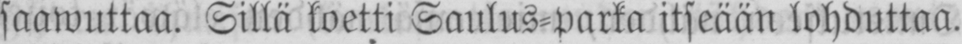saawuttaa. Sillä koetti Saulus-parka itseään lohduttaa.
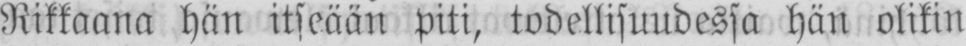Rikkaana hän itseään piti, todellisuudessa hän olikin
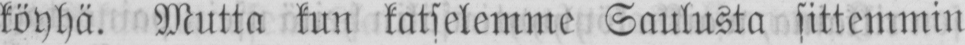köyhä. Mutta kun katselemme Saulusta sittemmin
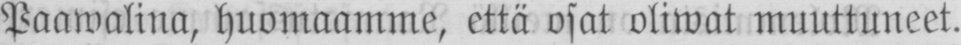Paawalina, huomaamme, että osat oliwat muuttuneet.
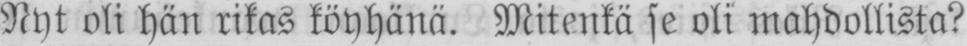Nyt oli hän rikas köyhänä. Mitenkä se oli mahdollista?
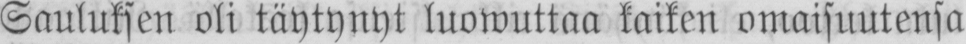Sauluksen oli täytynyt luowuttaa kaiken omaisuutensa
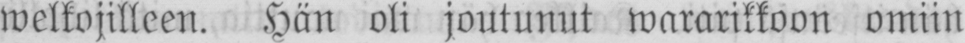welkojilleen. Hän oli joutunut wararikkoon omiin
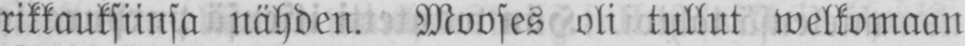rikkauksiinsa nähden. Mooses oli tullut welkomaan
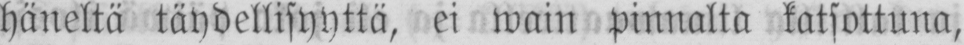häneltä täydellisyyttä, ei wain pinnalta katsottuna,
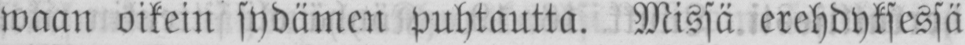waan oikein sydämen puhtautta. Missä erehdyksessä
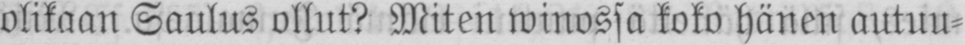olikaan Saulus ollut? Miten winossa koko hänen autuu-
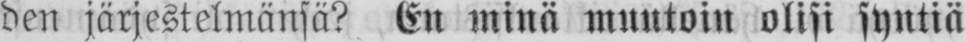den järjestelmänsä? En minä muutoin olisi syntiä
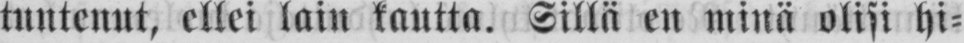tuntenut, ellei lain kautta. Sillä en minä olisi hi-
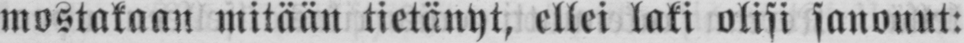mostakaan mitään tietänyt, ellei laki olisi sanonut:
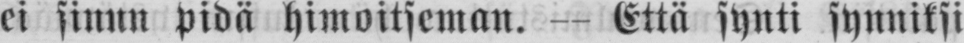ei sinun pidä himoitseman. — Että synti synniksi
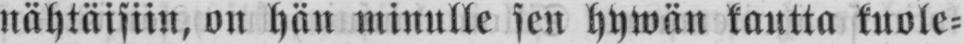nähtäisiin, on hän minulle sen hywän kautta kuole-
